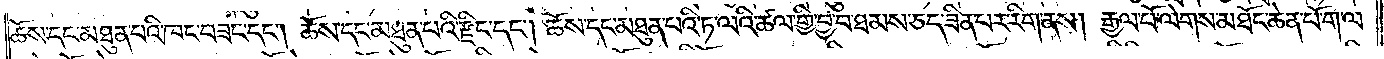ཆོས་དང་མཐུན་པའི་ཁང་བཟང་དང༌། ཆོས་དང་མཐུན་པའི་རྫིང་དང༌། ཆོས་དང་མཐུན་པའི་ཏ་ལའི་ཚལ་གྱི་བྱ་བ་ཐམས་ཅད་ཟིན་པར་རིག་ནས། རྒྱལ་པོ་ལེགས་མཐོང་ཆེན་པོ་ག་ལ་
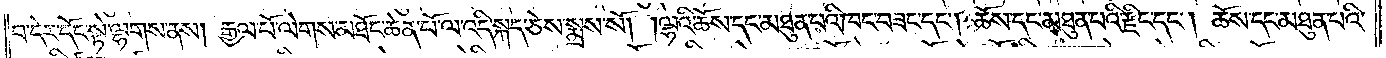བ་དེར་དོང་སྟེ་ལྷགས་ནས། རྒྱལ་པོ་ལེགས་མཐོང་ཆེན་པོ་ལ་འདི་སྐད་ཅེས་སྨྲས་སོ། །ལྷའི་ཆོས་དང་མཐུན་པའི་ཁང་བཟང་དང༌། ཆོས་དང་མཐུན་པའི་རྫིང་དང༌། ཆོས་དང་མཐུན་པའི་
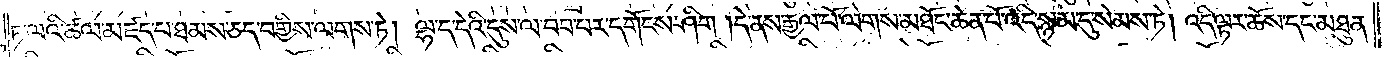ཏ་ལའི་ཚལ་མཛད་པ་ཐམས་ཅད་བགྱིས་ལགས་ཏེ། ལྷ་ད་དེའི་དུས་ལ་བབ་པར་དགོངས་ཤིག །དེ་ནས་རྒྱལ་པོ་ལེགས་མཐོང་ཆེན་པོ་འདི་སྙམ་དུ་སེམས་ཏེ། འདི་ལྟར་ཆོས་དང་མཐུན་
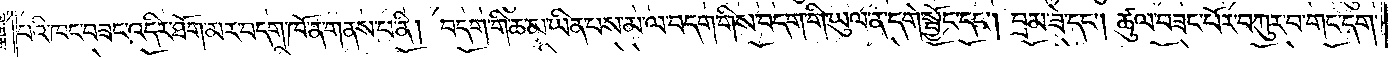པའི་ཁང་བཟང་འདིར་ཐོག་མར་བདག་ཁོ་ན་གནས་པ་ནི། བདག་གི་ཆ་མ་ཡིན་པས་མ་ལ་བདག་གིས་བདག་གི་ཡུལ་ན་དགེ་སྦྱོང་དང༌། བྲམ་ཟེ་དང༌། ཚུལ་བཟང་པོར་བཀུར་བ་གང་དག་
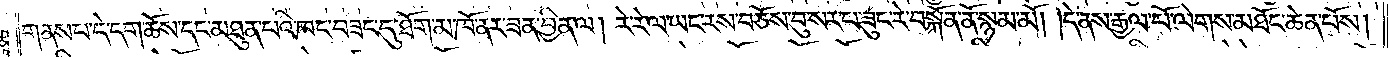གནས་པ་དེ་དག་ཆོས་དང་མཐུན་པའི་ཁང་བཟང་དུ་ཐོག་མ་ཁོ་ནར་ཟན་བྱིན་ལ། རེ་རེ་ལ་ཡང་རས་བཅོས་བུ་སར་པ་ཟུང་རེ་བསྐོན་ནོ་སྙམ་མོ། །དེ་ནས་རྒྱལ་པོ་ལེགས་མཐོང་ཆེན་པོས།
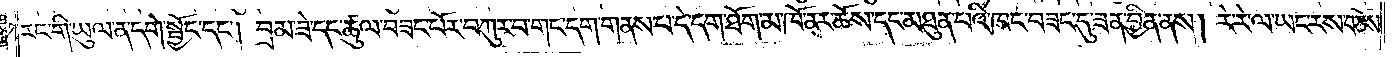རང་གི་ཡུལ་ན་དགེ་སྦྱོང་དང༌། བྲམ་ཟེ་དང་ཚུལ་བཟང་པོར་བཀུར་བ་གང་དག་གནས་པ་དེ་དག་ཐོག་མ་ཁོ་ནར་ཆོས་དང་མཐུན་པའི་ཁང་བཟང་དུ་ཟན་བྱིན་ནས། རེ་རེ་ལ་ཡང་རས་བཅོས་
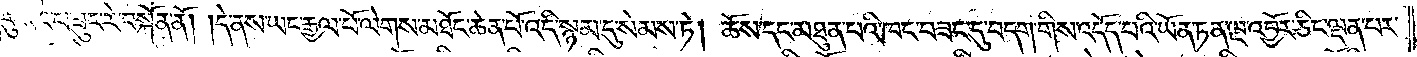བུ་སར་པ་ཟུང་རེ་བསྐོན་ནོ། །དེ་ནས་ཡང་རྒྱལ་པོ་ལེགས་མཐོང་ཆེན་པོ་འདི་སྙམ་དུ་སེམས་ཏེ། ཆོས་དང་མཐུན་པའི་ཁང་བཟང་དུ་བདག་གིས་འདོད་པའི་ཡོན་ཏན་ལྔ་འབྱོར་ཅིང་ལྡན་པར་
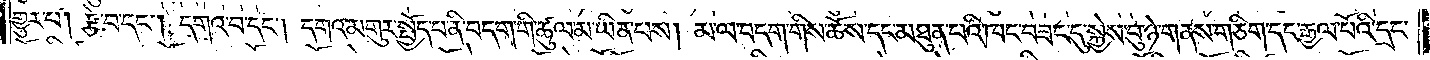གྱུར་པ། རྩེ་བ་དང༌། དགའ་བ་དང༌། དགའ་མགུར་སྤྱོད་པ་ནི་བདག་གི་ཚུལ་མ་ཡིན་པས། མ་ལ་བདག་གིས་ཆོས་དང་མཐུན་པའི་ཁང་བཟང་དུ་སྐྱེས་བུ་ཉེ་གནས་གཅིག་དང་རྒྱལ་པོའི་དྲང་
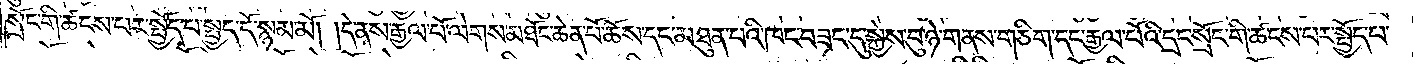སྲོང་གི་ཚངས་པར་སྤྱོད་པ་སྤྱད་དོ་སྙམ་མོ། །དེ་ནས་རྒྱལ་པོ་ལེགས་མཐོང་ཆེན་པོ་ཆོས་དང་མཐུན་པའི་ཁང་བཟང་དུ་སྐྱེས་བུ་ཉེ་གནས་གཅིག་དང་རྒྱལ་པོའི་དྲང་སྲོང་གི་ཚངས་པར་སྤྱོད་པ་
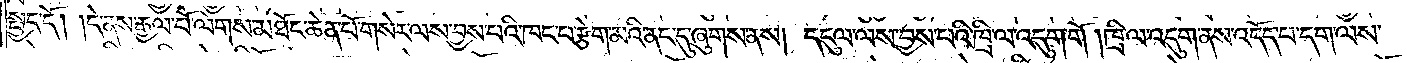སྤྱད་དོ། །དེ་ནས་རྒྱལ་པོ་ལེགས་མཐོང་ཆེན་པོ་གསེར་ལས་བྱས་པའི་ཁང་པ་རྩེག་མའི་ནང་དུ་ཞུགས་ནས། དངུལ་ལས་བྱས་པའི་ཁྲི་ལ་འདུག་གོ །ཁྲི་ལ་འདུག་ནས་འདོད་པ་དག་ལས་
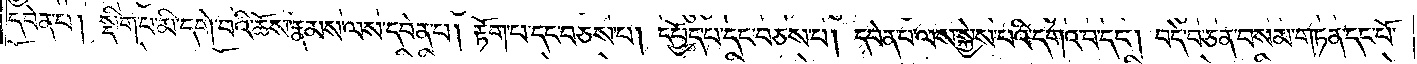དབེན་པ། སྡིག་པ་མི་དགེ་བའི་ཆོས་རྣམས་ལས་དབེན་པ། རྟོག་པ་དང་བཅས་པ། དཔྱོད་པ་དང་བཅས་པ། དབེན་པ་ལས་སྐྱེས་པའི་དགའ་བ་དང༌། བདེ་བ་ཅན་བསམ་གཏན་དང་པོ་
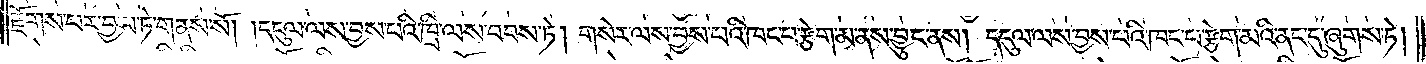རྫོགས་པར་བྱས་ཏེ་གནས་སོ། །དངུལ་ལས་བྱས་པའི་ཁྲི་ལས་བབས་ཏེ། གསེར་ལས་བྱས་པའི་ཁང་པ་རྩེག་མ་ནས་བྱུང་ནས། དངུལ་ལས་བྱས་པའི་ཁང་པ་རྩེག་མའི་ནང་དུ་ཞུགས་ཏེ།
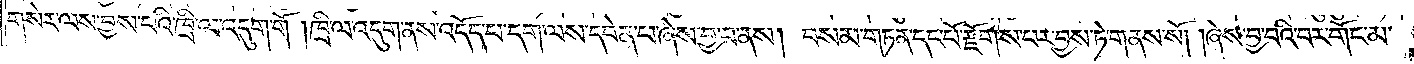གསེར་ལས་བྱས་པའི་ཁྲི་ལ་འདུག་གོ། །ཁྲི་ལ་འདུག་ནས་འདོད་པ་དག་ལས་དབེན་པ་ཞེས་བྱ་བ་ནས། བསམ་གཏན་དང་པོ་རྫོགས་པར་བྱས་ཏེ་གནས་སོ། །ཞེས་བྱ་བའི་བར་གོང་མ་
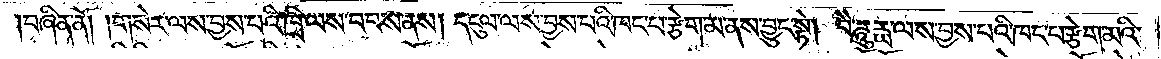བཞིན་ནོ། །གསེར་ལས་བྱས་པའི་ཁྲི་ལས་བབས་ནས། དངུལ་ལས་བྱས་པའི་གང་པ་རྩེག་མ་ནས་བྱུང་སྟེ། བཻ་ཌཱུརྻ་ལས་བྱས་པའི་ཁང་པ་རྩེག་མའི་
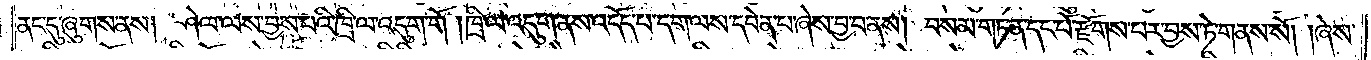ནང་དུ་ཞུགས་ནས། ཤེལ་ལས་བྱས་པའི་ཁྲི་ལ་འདུག་གོ །ཁྲི་ལ་འདུག་ནས་འདོད་པ་དག་ལས་དབེན་པ་ཞེས་བྱ་བ་ནས། བསམ་གཏན་དང་པོ་རྫོགས་པར་བྱས་ཏེ་གནས་སོ། །ཞེས་
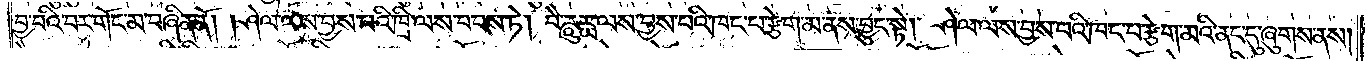བྱ་བའི་བར་གོང་མ་བཞིན་ནོ། །ཤེལ་ལས་བྱས་པའི་ཁྲི་ལས་བབས་ཏེ། བཻ་ཌཱུརྻ་ལས་བྱས་པའི་ཁང་པ་རྩེག་མ་ནས་བྱུང་སྟེ། ཤེལ་ལས་བྱས་པའི་ཁང་པ་རྩེག་མའི་ནང་དུ་ཞུགས་ནས།
